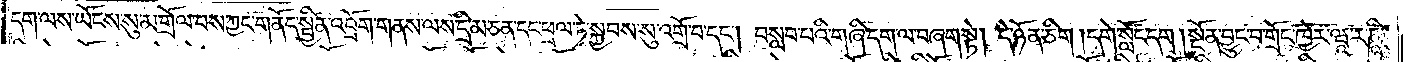དག་ལས་ཡོངས་སུ་མ་གྲོལ་བས་ཀྱང་གནོད་སྦྱིན་འབྲོག་གནས་ལས་དྲི་མ་ཅན་དང་ཕྲལ་ཏེ་སྐྱབས་སུ་འགྲོ་བ་དང༌། བསླབ་པའི་གཞི་དག་ལ་བཞག་སྟེ། དེ་ཉོན་ཅིག །དགེ་སློང་དག །སྔོན་བྱུང་བ་གྲོང་ཁྱེར་ཝཱ་ར་ཎཱི་
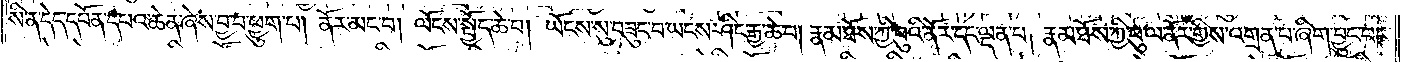སི་ན་དེད་དཔོན་དཔའ་ཆེན་ཞེས་བྱ་བ་ཕྱུག་པ། ནོར་མང་བ། ལོངས་སྤྱོད་ཆེ་བ། ཡོངས་སུ་བཟུང་བ་ཡངས་ཤིང་རྒྱ་ཆེ་བ། རྣམ་ཐོས་ཀྱི་བུའི་ནོར་དང་ལྡན་པ། རྣམ་ཐོས་ཀྱི་བུ་ལ་ནོར་གྱིས་འགྲན་པ་ཞིག་བྱུང་བར་
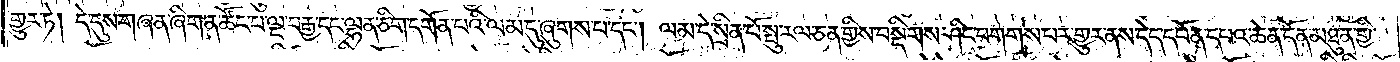གྱུར་ཏེ། དེ་དུས་གཞན་ཞིག་ན་ཚོང་པ་ལྔ་བརྒྱ་དང་ལྷན་ཅིག་དགོན་པའི་ལམ་དུ་ཞུགས་པ་དང༌། ལམ་དེ་སྲིན་པོ་སྤུ་རལ་ཅན་གྱིས་བསྡིགས་ཤིང་བགགས་པར་གྱུར་ནས་དེད་དཔོན་དཔའ་ཆེན་དོན་མཐུན་གྱི་
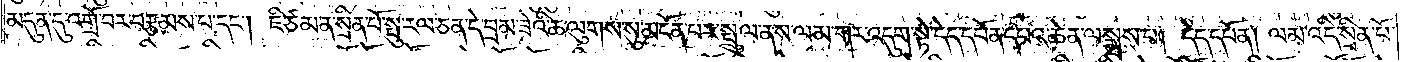མདུན་དུ་འགྲོ་བར་བརྩམས་པ་དང༌། ཇི་ཙམ་ན་སྲིན་པོ་སྤུ་རལ་ཅན་དེ་བྲམ་ཟེའི་ཆ་ལུགས་སུ་མངོན་པར་སྤྲུལ་ནས་ལམ་ཀར་འདུག་སྟེ་དེད་དཔོན་དཔའ་ཆེན་ལ་སྨྲས་པ། དེད་དཔོན། ལམ་འདི་སྲིན་པོ་
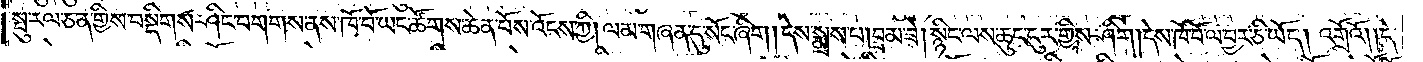སྤུ་རལ་ཅན་གྱིས་བསྡིགས་ཤིང་བགགས་ནས་ཁོ་བོ་ཡང་ཚོགས་ཆེན་པོས་འོངས་ཀྱི། ལམ་གཞན་དུ་སོང་ཞིག །དེས་སྨྲས་པ། བྲམ་ཟེ། སྙིང་ལས་ཆུང་ངུར་གྱིས་ཤིག །དེས་ཁོ་བོ་ལ་བྱར་ཅི་ཡོད། འགྲོའོ། །དེ་
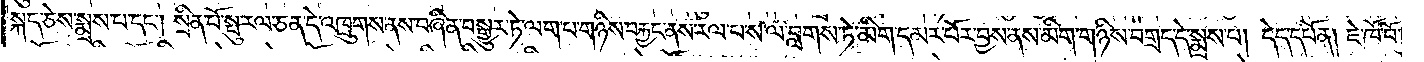སྐད་ཅེས་སྨྲས་པ་དང༌། སྲིན་པོ་སྤུ་རལ་ཅན་དེ་འཁྲུགས་ནས་བཞིན་བསྒྱུར་ཏེ་ལག་པ་གཉིས་བརྐྱང་ནས་རལ་པ་ས་ལ་བླགས་ཏེ་མིག་དམར་པོར་བྱས་ནས་མིག་གཉིས་བགྲད་དེ་སྨྲས་པ། དེད་དཔོན། ཇེ་ཁོ་བོ་
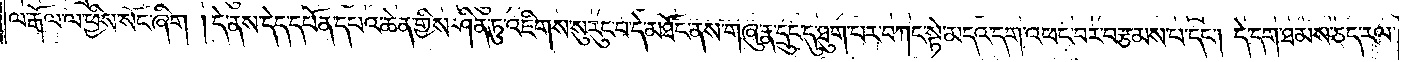ལ་རྒོལ་ལ་ཕྱིས་སོང་ཞིག །དེ་ནས་དེད་དཔོན་དཔའ་ཆེན་གྱིས་ཤིན་ཏུ་འཇིགས་སུ་རུང་བ་དེ་མཐོང་ནས་གཞུ་རྣ་དྲུང་དུ་ཐུག་པར་བཀང་སྟེ་མདའ་དག་འཕང་བར་བརྩམས་པ་དང༌། དེ་དག་ཐམས་ཅད་རལ་
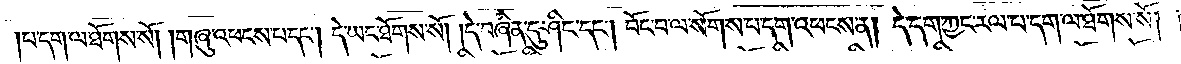པ་དག་ལ་ཐོགས་སོ། །གཞུ་འཕངས་པ་དང༌། དེ་ཡང་ཐོགས་སོ། །དེ་བཞིན་དུ་ཤིང་དང༌། བོང་བ་ལ་སོགས་པ་དག་འཕངས་ན། དེ་དག་ཀྱང་རལ་པ་དག་ལ་ཐོགས་སོ། །
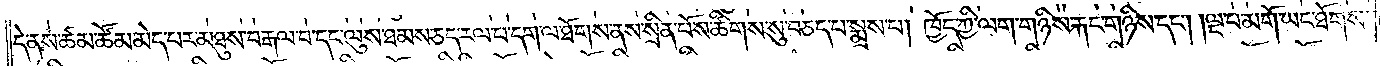དེ་ནས་ཚམ་ཚོམ་མེད་པར་མཐུས་པ་བརྒལ་བ་དང་ལུས་ཐམས་ཅད་རལ་པ་དག་ལ་ཐོགས་ནས་སྲིན་པོས་ཚིགས་སུ་བཅད་པ་སྨྲས་པ། ཁྱོད་ཀྱི་ལག་གཉིས་རྐང་གཉིས་དང༌། ལྔ་པ་མགོ་ཡང་ཐོགས་
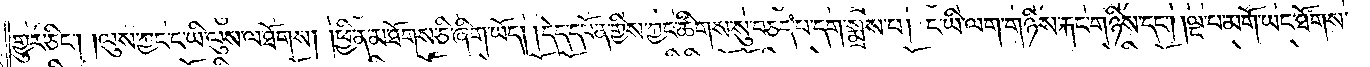གྱུར་ཅིང༌། །ལུས་ཀྱང་ང་ཡི་ལུས་ལ་ཐོགས། །ཕྱིན་མ་ཐོགས་ཅི་ཞིག་ཡོད། །དེད་དཔོན་གྱིས་ཀྱང་ཚིགས་སུ་བཅད་པ་དག་སྨྲས་པ། ང་ཡི་ལག་གཉིས་རྐང་གཉིས་དང༌། ལྔ་པ་མགོ་ཡང་ཐོགས་
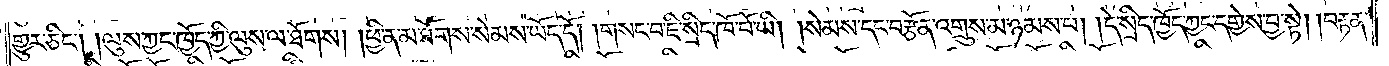གྱུར་ཅིང༌། །ལུས་ཀྱང་ཁྱོད་ཀྱི་ལུས་ལ་ཐོགས། །ཕྱིན་མ་ཐོགས་སེམས་ཡོད་དོ། །གསང་བ་ཇི་སྲིད་ཁོ་བོ་ཡི། །སེམས་དང་བརྩོན་འགྲུས་མ་ཉམས་པ། །དེ་སྲིད་ཁྱོད་ཀྱང་དགྱེས་བྱ་སྟེ། །བརྟན་
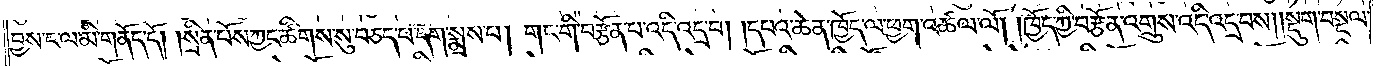བྱས་ང་ལ་མི་གནོད་དོ། །སྲིན་པོས་ཀྱང་ཚིགས་སུ་བཅད་པ་དག་སྨྲས་པ། གང་གི་བརྩོན་པ་འདི་འདྲ་བ། །དཔའ་ཆེན་ཁྱོད་ལ་ཕྱག་འཚལ་ལོ། །ཁྱོད་ཀྱི་བརྩོན་འགྲུས་འདི་འདྲ་བས། །སྡུག་བསྔལ་
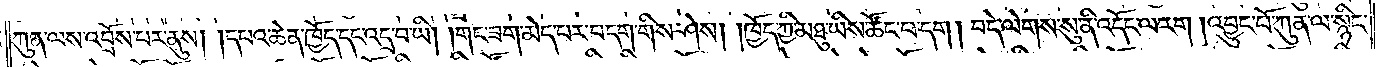ཀུན་ལས་འབྲོས་པར་ནུས། །དཔའ་ཆེན་ཁྱོད་དང་འདྲ་བ་ཡི། །གང་ཟག་མེད་པར་བདག་གིས་ཤེས། །ཁྱོད་ཀྱི་མཐུ་ཡིས་ཚོང་བ་དག། བདེ་ལེགས་སུ་ནི་འདོང་ལ་རག། འབྱུང་པོ་ཀུན་ལ་སྙིང་
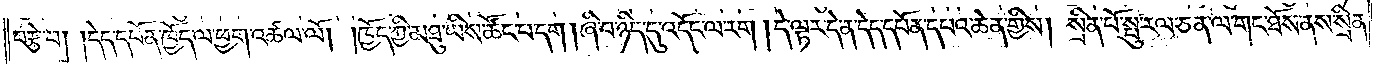བརྩེ་བ། །དེད་དཔོན་ཁྱོད་ལ་ཕྱག་འཚལ་ལོ། །ཁྱོད་ཀྱི་མཐུ་ཡིས་ཚོང་པ་དག །ཞི་བ་ཉིད་དུ་འདོང་ལ་རག །དེ་ལྟར་དེ་ན་དེད་དཔོན་དཔའ་ཆེན་གྱིས། སྲིན་པོ་སྤུ་རལ་ཅན་ལ་གང་ཐོས་ནས་སྲིན་
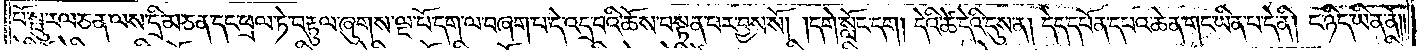པོ་སྤུ་རལ་ཅན་ལས་དྲི་མ་ཅན་དང་ཕྲལ་ཏེ་བརྟུལ་ཞུགས་ལྔ་པོ་དག་ལ་བཞག་པ་དེ་འདྲ་བའི་ཆོས་བསྟན་པར་བྱས་སོ། །དགེ་སློང་དག །དེའི་ཚེ་དེའི་དུས་ན། དེད་དཔོན་དཔའ་ཆེན་གང་ཡིན་པ་དེ་ནི། ང་ཉིད་ཡིན་ནོ། །
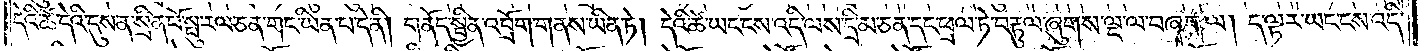དེའི་ཚེ་དེའི་དུས་ན་སྲིན་པོ་སྤུ་རལ་ཅན་གང་ཡིན་པ་དེ་ནི། གནོད་སྦྱིན་འབྲོག་གནས་ཡིན་ཏེ། དེའི་ཚེ་ཡང་ངས་འདི་ལས་དྲི་མ་ཅན་དང་ཕྲལ་ཏེ་བརྟུལ་ཞུགས་ལྔ་ལ་བཞག་ལ། ད་ལྟར་ཡང་ངས་འདི་
